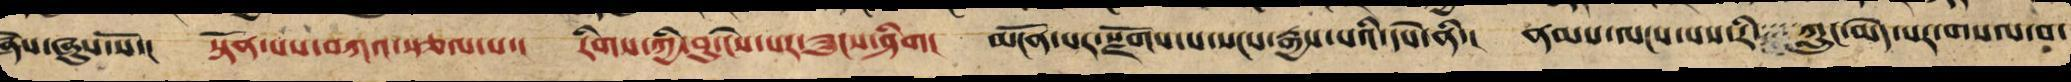ཞེས་ཞུས་སོ་། སྟོན་པས་བཀའ་སྩལ་པ་། རིགས་ཀྱི་བུ་ངེས་པར་ཟུངས་ཤིག། མངོན་པར་སྫོགས་པ་སངས་རྒྱས་པའི་དཔེ་ནི་། ནམས་ལངས་པས་རི་་་་ཀླུང་མེད་པར་གསལ་བ་
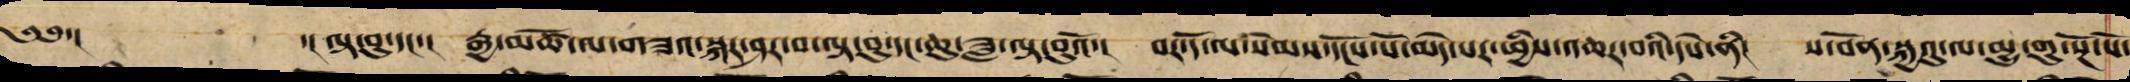༄༅་། ་། ལྟ་བུ་དང་། རྒྱ་མཚོ་ལ་གཟའ་སྐར་ཤར་བ་ལྟ་བུ་དང་ཆུ་ཟླ་ལྟ་བུའོ་། བར་དོ་ལ་སེམས་དངོས་པོ་མེད་པར་ཕྱིས་འཆར་བའི་དཔེ་ནི། ས་བོན་སྐྱེའུ་ལ་མྱུ་གུ་སྔོ་པོ་
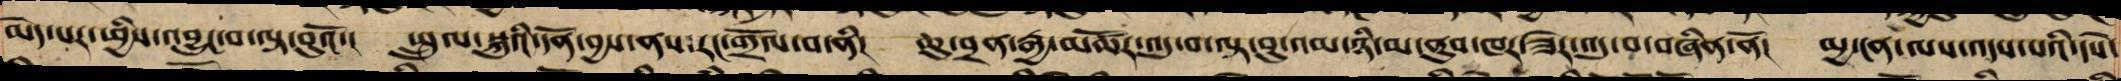མེད་པར་ཕྱིས་འབྱུང་བ་ལྟ་བུའོ་། སྤྲུལ་སྐུའི་དོན་བྱས་ནས་རང་གྲོལ་བ་ནི། ཆུ་བྲན་རྒྱ་མཚོར་འདུ་བ་ལྟ་བུ་འམ་ཉི་མ་ནུབ་ཁར་ཟེར་འདུ་བ་བཞིན་ནོ། མྱ་ངན་ལས་འདས་པའི་དཔེ་
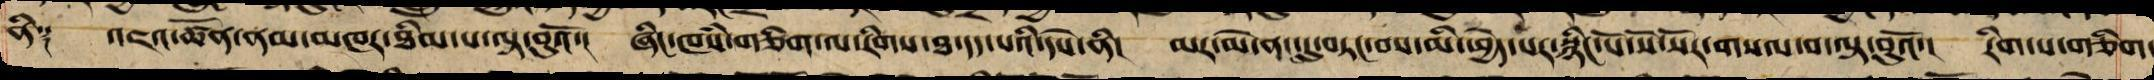ནི༑ འཇའ་ཚོན་ནམ་མཁར་ཐིམ་པ་ལྟ་བུའོ་། ཞིང་ཁཾས་གཅིག་ལ་རིགས་ཐ་དད་པའི་དཔེ་ནི། མར་མེ་ནང་དུ་བཏང་བས་མི་ཕྱེད་པར་སྙིང་པོ་སོ་སོར་གསལ་བ་ལྟ་བུའོ་། རིག་པ་གཅིག་
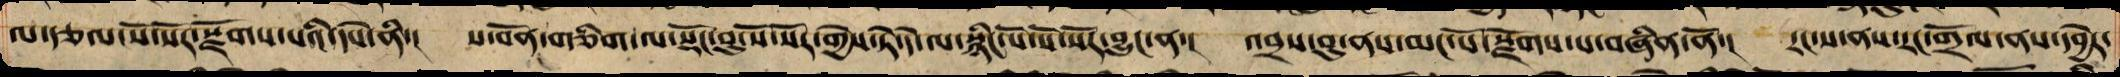ལ་རྩལ་སོ་སོར་སྫོགས་པའི་དཔེ་ནི་། ས་བོན་གཅིག་ལ་སྡོང་བུ་སོ་སོར་གྱེས་ཏེ་དེ་ལ་སྙིང་པོ་སོ་སོར་བྱུང་ན་། འབྲས་བུ་ནས་མང་པོ་སྫོགས་པ་བཞིན་ནོ་། རང་ས་ནས་རང་གྲོལ་ནས་དབྱེར་
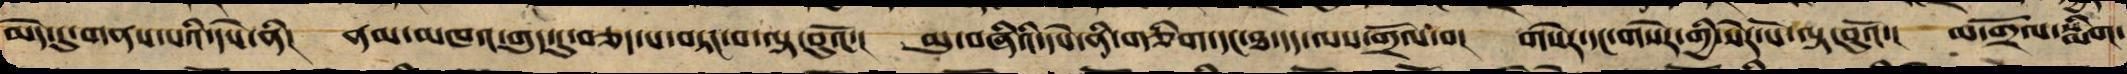མེད་དུ་གནས་པའི་དཔེ་ནི། ནམ་མཁའ་གུད་དུ་བཅད་པ་བཏང་བ་ལྟ་བུའོ་། མུ་བཞིའི་དཔེ་ནི་གཅིག་དང་ཐ་དད་ལས་གྲོལ་བ། གསེར་དང་གསེར་གྱི་སེར་པོ་ལྟ་བུའོ་། མ་གྲོལ་སྨིག་
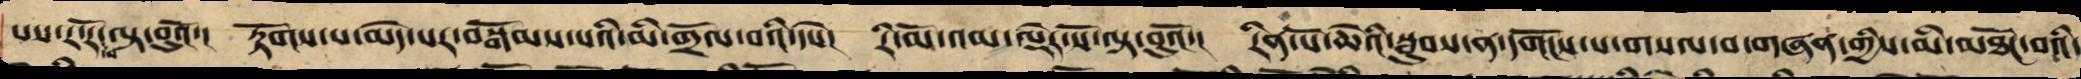པས་ར་རོ་ལྟ་བུའོ་། རྟོགས་པ་མེད་པར་བསྒོམས་པའི་མི་གྲོལ་བའི་དཔེ། རི་མོ་འམ་ལྡེར་སོ་ལྟ་བུའོ་། རིན་པོ་ཆེའི་སྦུབས་ན་དགོངས་པ་གསལ་བ་གཞན་གྱིས་མི་མཐོང་བའི་
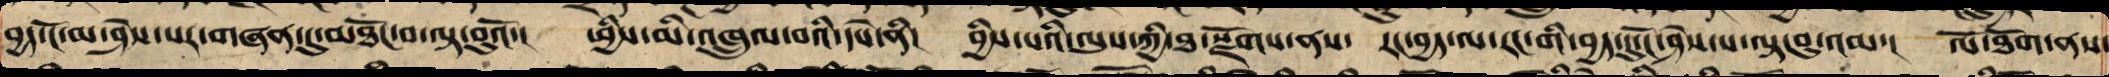བྱད་ངོ་མ་ཤེས་པར་གཞན་དུ་མཐོང་བ་ལྟ་བུའོ་། ཕྱིས་མི་འཁྲུལ་པའི་དཔེ་ནི། བྱིས་པའི་ལུས་ཀྱི་ཐ་སྫོགས་ནས་ རང་བྱད་ལ་རང་གི་བྱད་དུ་ངོ་ཤེས་པ་ལྟ་བུ་འམ་། ལོ་ཐོག་ནས་
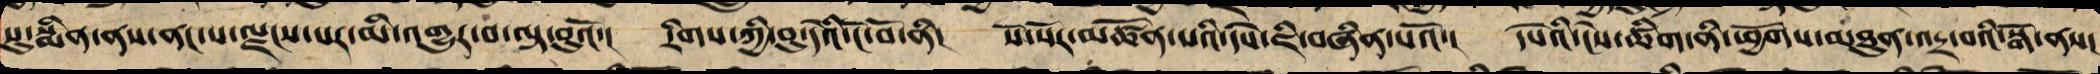སུ་སྨིན་ནས་ནང་པ་ལྗངས་པར་མི་འགྱུར་བ་ལྟ་བུའོ་། རིགས་ཀྱི་བུ་དེའི་ངོ་བོ་ནི། སོ་སོར་མཚོན་པའི་དཔེ་ཇི་བཞིན་པའོ་། དཔེའི་ངེས་ཚིག་ནི་ཕྱོགས་མཐུན་འདྲ་བའི་སྒོ་ནས།
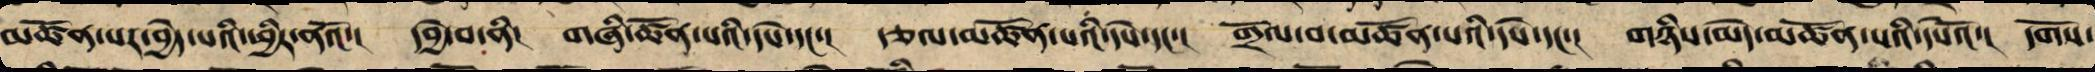མཚོན་པར་བྱེད་པའི་ཕྱིར་ནའོ་། དབྱེ་བ་ནི། གཞི་ཚོན་པའི་དཔེ་དང་། རྩལ་མཚོན་པའི་དཔེ་དང་། གྲོལ་བ་མཚོན་པའི་དཔེ་དང་། གཉིས་མེད་མཚོན་པའི་དཔེའོ་། དགོས་
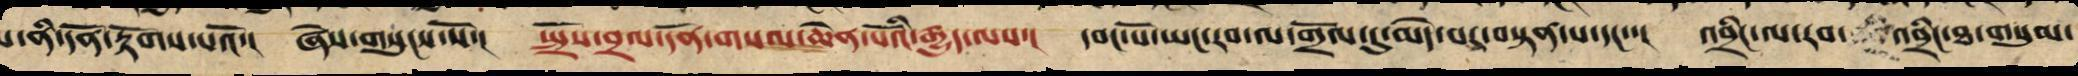པ་ནི་དོན་རྟོགས་པའོ་། ཞེས་གསུངས་སོ་། སྤྲོས་བྲལ་དོན་གསལ་ཆེན་པོའི་རྒྱུད་ལས་། དབང་པོ་ཡང་རབ་ལ་གྲོལ་དུ་མེད་པར་བསྟན་པ་དང་་། འབྲིང་ལ་རབ་ འབྲིང་ཐ་གསུམ་
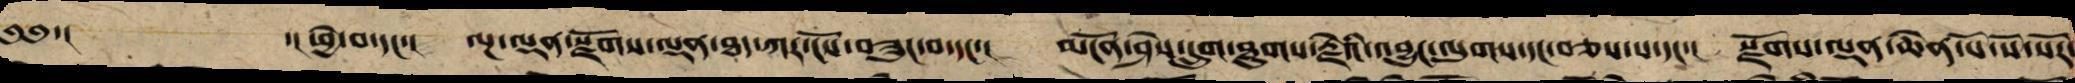༄༅་། ་། ཕྱེ་བ་དང་། ལྔ་ལྡན་སྫོགས་ལྡན་ཐད་ཀར་ངོས་བཟུང་བ་དང་། མངོན་ཤེས་དྲུག་ཐུགས་རྗེའི་འབྱུང་ལུགས་དང་བཅས་པ་དང་། སྫོགས་ལྡན་ཆེན་པོ་སོ་སོར་
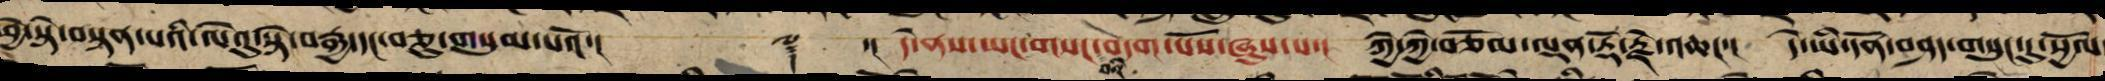ཕྱེ་སྟེ་བསྟན་པའི་ལེའུ་སྟེ་བརྒྱ་དང་བཅུ་གསུམ་པའོ་།། ༈ ་། དེ་ནས་ཡང་གསང་བདག་པོས་ཞུས་པ་། ཀྱེ་ཀྱེ་བཅོམ་ལྡན་རྡོ་རྗེ་འཆང་། དེ་ཡི་དོན་བཤད་གསུང་དུ་སྱོལ
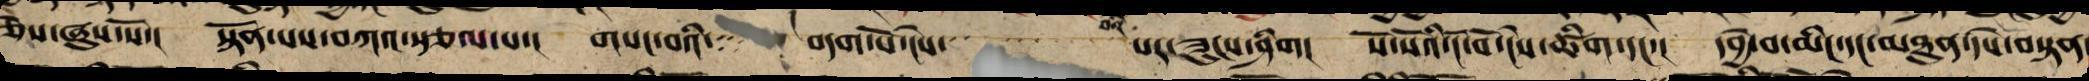ཅེས་ཞུས་སོ་། སྟོན་པས་བཀའ་སྩལ་པ་། གསང་བའི་ བདག་པོ་ངེས་་་ ་་་་་་་པར་ཟུངས་ཤིག། སོ་སོའི་ངོ་བོ་ངེས་ཚིག་དང་། དབྱེ་བ་མིང་དང་མཐུན་དཔེ་བསྟན
